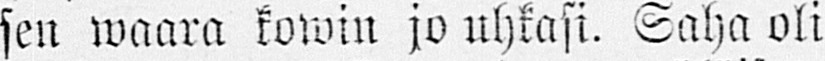sen waara kowin jo uhkasi. Saha oli
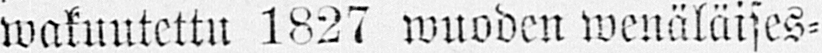wakuutettu 1827 wuoden wenäläises-
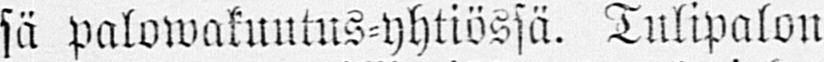sä palowakuutus-yhtiössä. Tulipalon
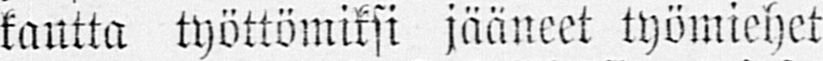kautta työttömiksi jääneet työmiehet
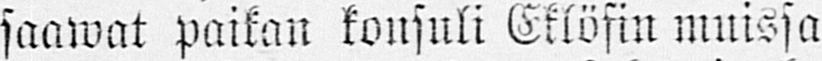saawat paikan konsuli Eklöfin muissa
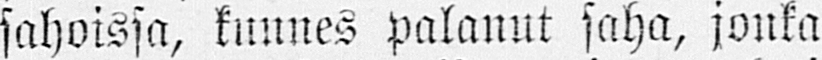sahoissa, kunnes palanut saha, jonka
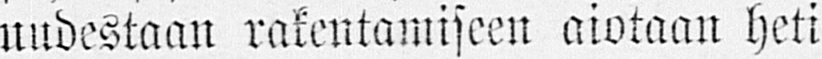uudestaan rakentamiseen aiotaan heti
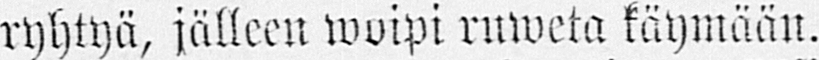ryhtyä, jälleen woipi ruweta käymään.
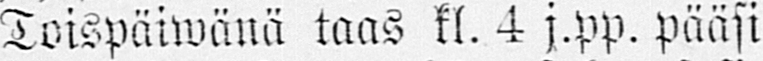Toispäiwänä taas kl. 4 j.pp. pääsi
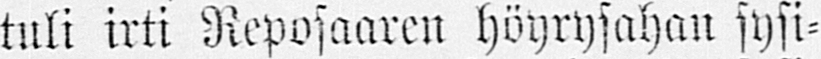tuli irti Reposaaren höyrysahan sysi-
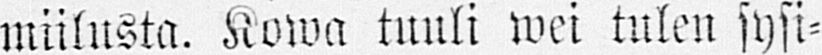miilusta. Kowa tuuli wei tulen sysi-
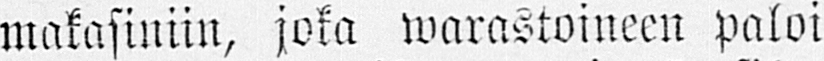makasiniin, joka warastoineen paloi
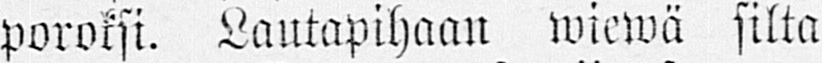poroksi. Lautapihaan wiewä silta
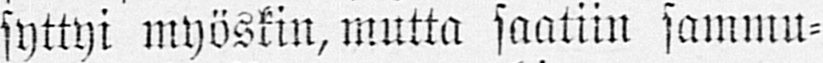syttyi myöskin, mutta saatiin sammu-
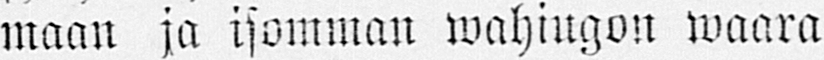maan ja isomman wahiugon waara
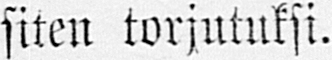siten torjutuksi.
